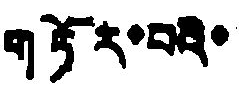གཏོར་བའི་
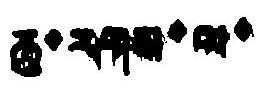ཆུ་རགས་ལ་
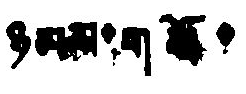ཉམས་གཟོ་
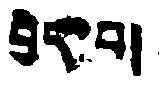བྱེད་པ།
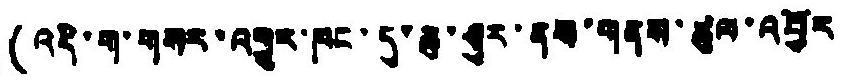(འདི་ག་གསར་འགྱུར་ཁང་དུ་ཆུ་ཤུར་ནས་གནས་ཚུལ་འབྱོར
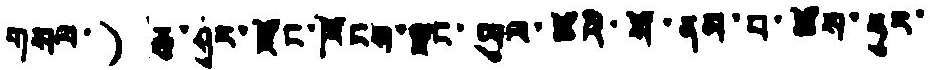གསལ་) ཆུ་ཤུར་རྫོང་ཁོངས་ལྗང་ཡུལ་ཚོའི་སོ་ནམ་པ་ཚོས་ཧུར་
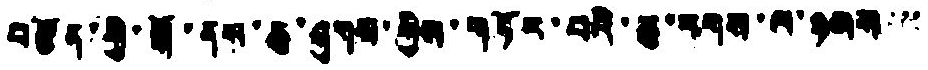བརྩོན་གྱི་སྒོ་ནས་ཆུ་ཤུགས་གྱིས་གཏོར་བའི་ཆུ་རགས་ལ་ཉམས་་་
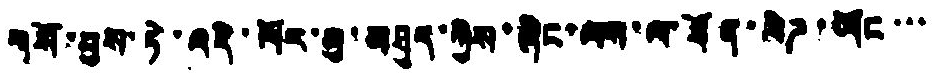གསོ་བྱས་ཏེ་འདི་ལོར་མུ་མཐུད་ཀྱིས་ཞིང་ལས་ལ་ཐོན་ལེཌ་ཡོང་་་
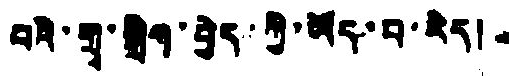བའི་གྲྭ་སྒྲིག་བྱེད་ཀྱི་ཡོད་པ་རེད།
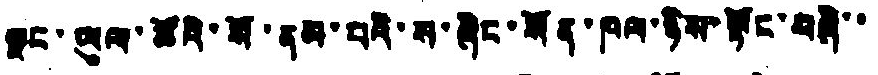ལྗང་ཡུལ་ཚོའི་སོ་ནམ་པའི་ས་ཞིང་སོན་ཁལ་ཉིས་སྟོང་བཞི་་
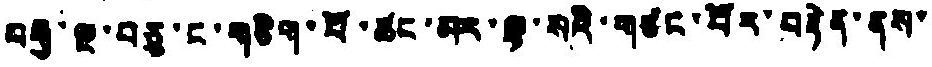བརྒྱ་ལྔ་བཅུ་ང་གཅིག་པོ་ཚང་མར་ལྷ་སའི་གཙང་པོར་བརྟེན་ནས་
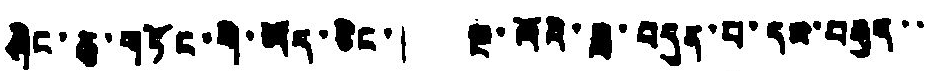ཤིང་ཆུ་གཏོང་གི་ཡོད་ཅིང་། ལྔ་ལོའི་ཟླ་བདུན་པ་དམ་བརྒྱད་་
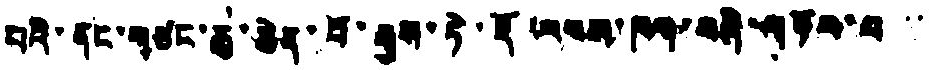པའི་ནང་གཙང་ཆུ་ཆེན་པོ་རྒྱས་ཏེ་རྡོ་རབས་ཁག་བཞི་གཏོར་པ་་
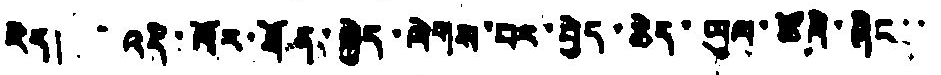རེད། འདི་ལོར་ཐོན་སྐྱེད་ལེགས་པར་བྱེད་ཆེད་ཡུལ་ཚོའི་ཞིང་་
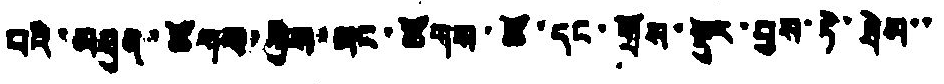པའི་མཐུན་ཚོགས་ཀྱིས་མང་ཚོགས་ཚོ་དང་གྲོས་སྡུར་བྱས་ཏེ་ཐེམ་་
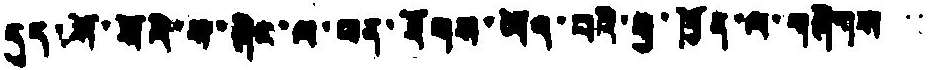དུད་སོ་སོའི་ས་ཞིང་ལ་ཕན་ཐོགས་ཡོད་པའི་རྒྱ་ཁྱོན་ལ་གཞིགས་་
